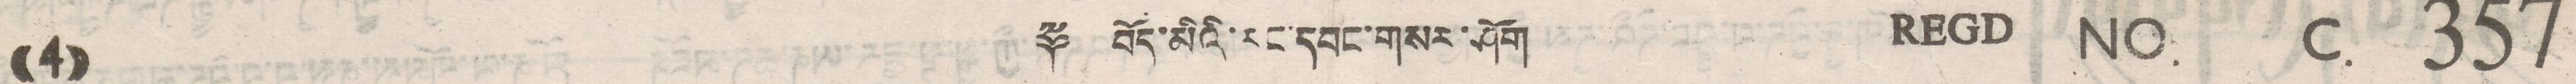((4)) ༈ བོད་མིའི་རང་དབང་གསར་ཤོག REGD NO. C. 357
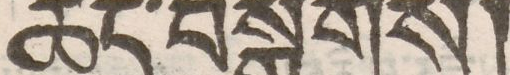ཆེད་བསྒྲགས།
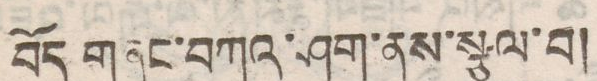བོད་གཞུང་བཀའ་ཤག་ནས་སྩལ་བ།
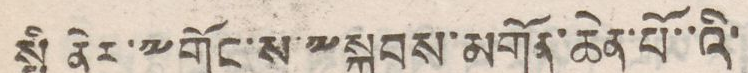སྤྱི ནོར་༸གོང་ས་༸སྐྱབས་མགོན་ཆེན་པོ་་འི་
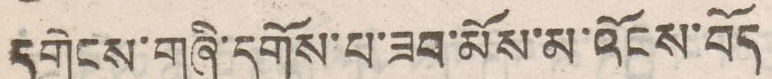དགེངས་གཞི་དགོས་པ་ཟབ་མོས་མ་འོངས་བོད
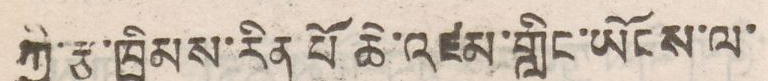ཀྱི་རྩ་ཁྲིམས་རིན པོ ཆེ་འཛམ་གླིང་ཡོངས་ལ་
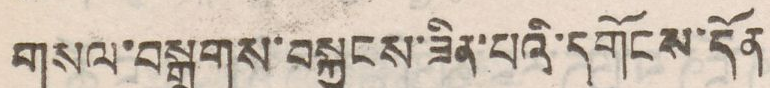གསལ་བསྒྲགས་བསྐྱངས་ཟིན་པའི་དགོངས་དོན་
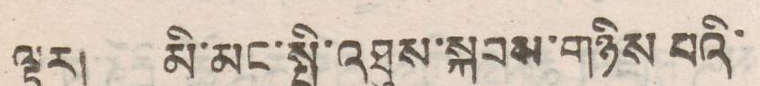ལྟར། མི་མང་སྤྱི་འཐུན་སྐབས་གཉིས པའི་
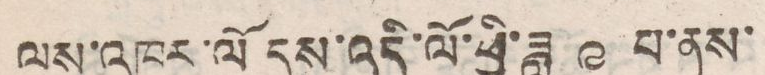ལས་འཁུར་ལོ དུས་འདི་ལོ་ཟླ་ ༩ པ་ནས་
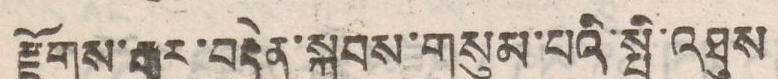རྫོགས་རྒྱུར་བརྟེན་སྐབས་གསུམ་པའི་སྤྱི་འཐུས
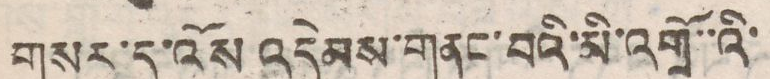གསར་དུ་འོས འདེམས་གནང་པའི་མི་འགྲོ་་འི་
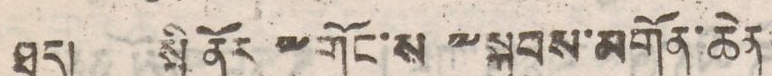ཐད། སྤྱི ནོར ༸གོང་ས ༸སྐྱབས་མགོན་ཆེན
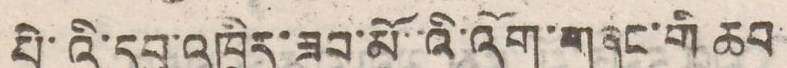པེ་ འི་དབུ་འཁྲིད་ཟབ་མོ་འི་འོག་གཞུང་གི ཆབ
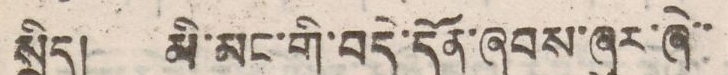སྲིད། མི་མིང་གི་བདེ་དོན་ཞབས་ཞུར་ཞེ་་
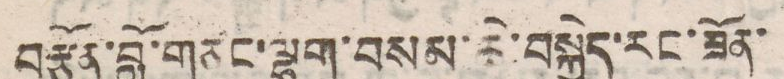བརྩོན་བློ་གཙང་ལྷག་བསམ་ཆེ་བསྐྱེད་རང་ཟོན་
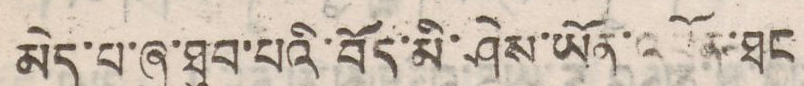མེད་པ་ཞུ་ཐུབ་པའི་བོད་མི་ཤེས་ཡོན་འཕོན་ཐང
